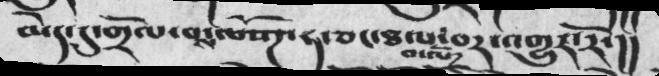མེད་དུ་གྲོལ་བས་ལསོཌ་ཧ་ཅང་ཐལ་བ་ལོ་བར་འགྱུར་རོ་།།
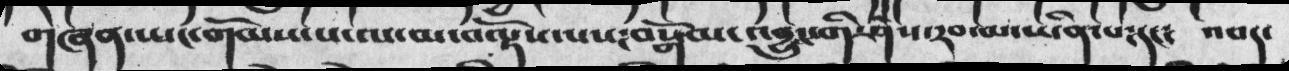གཞན་ཡང་གོམས་པ་ལ་མ་བལྟོས་པས༴བསྒོམ་འབྱུང་གི་ཤེས་རབ་མ་ཡིན་པ༴དང༴ འབད་
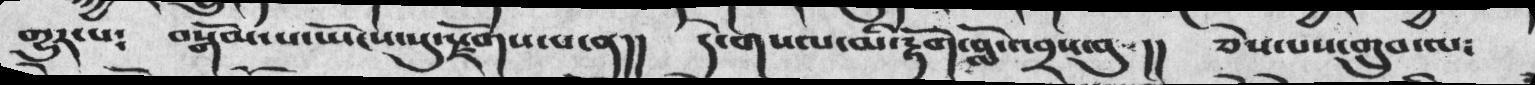གྱུར་པ༴  བསྒོམ་པ་ཡོངས་སུ་སྫོགས་པ་ན།།  དེ་གསལ་མི་རྟོག་བློ་འབྲས་བུ །།  ཅེས་པས་གྲུབ་ལ༴
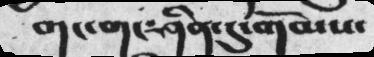གང་གང་ཤིན་དུ་གོམས་
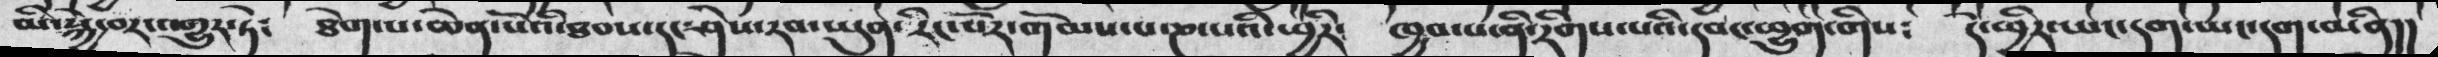མི་སྐྱེ་བར་འགྱུར་ཏེ༴  ཐེག་པ་ཆེན་པོའི་ཐབས་དང་ཤེས་རབ་ཡུན་རིང་པོར་གོམས་པ་ཎ་པའི་ཕྱིར་  ཁྱབ་པ་ནི་རིགས་པའི་དབང་ཕྱུག་གིས༴  དེ་ཕྱིར་ཡང་དག་ཡང་དག་མིན།།
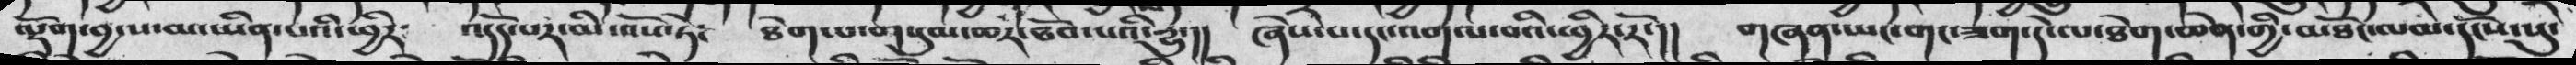ལྡོག་བྱ་པ་མ་ཡིན་པའི་ཕྱིར་  འདོད་པར་མི་འོས་ཏེ༴  ཐེག་པ་གསུམ་ཆར་ཐོབ་པའི་རྱུ་།།  ཞེས་པ་དང་འགལ་བའི་ཕྱིར་རོ་།།  གཞན་ཡང་གང་ཟག་དེ་ལ་ཐེག་ཆེན་གྱི་མཐོང་ལམ་དངོས་སུ་
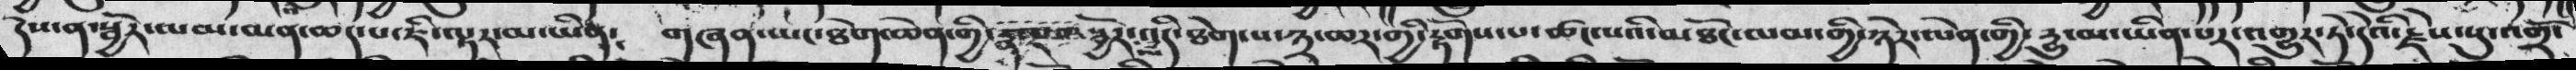དེས་ན་སྦྱོར་ལམ་མན་ཆད་པ་ཇི་ལྟར་མ་ཡིན༴  གཞན་ཡང་ཐེག་ཆེན་གྱི་རྣལ་སྦྱོར་འདི་ཐེག་པ་༣་ཆར་གྱི་རྟོགས་པ་ཚང་ལའི་མཐོང་ལམ་གྱི་ཉེར་ལེན་གྱི་རྒྱུ་མ་ཡིན་པར་འགྱུར་ཏེ་དེའི་རྗེས་སུ་འགྲོ་
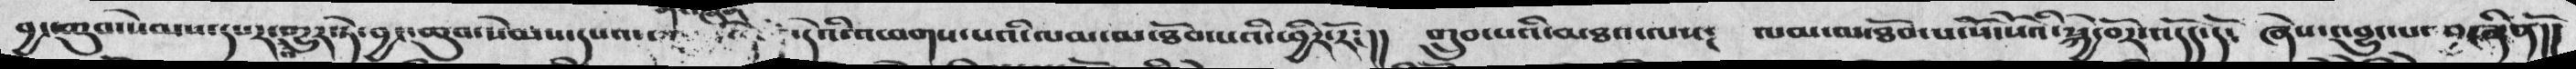བྱང་ཆུབ་སེམས་དཔར་འགྱུར་ཏེ་བྱང་ཆུམ་སེམས་དཔའ་    དེའི་འཕགས་པའི་ལམ་མ་ཐོབ་པའི་ཕྱིར་རོ༴།།  གྲུབ་པའི་མཐལ་ལས༴   ལམ་མ་ཐོབ་པ་སོ་སོའི་སྐྱེ་བོ་འདོད་ནོ
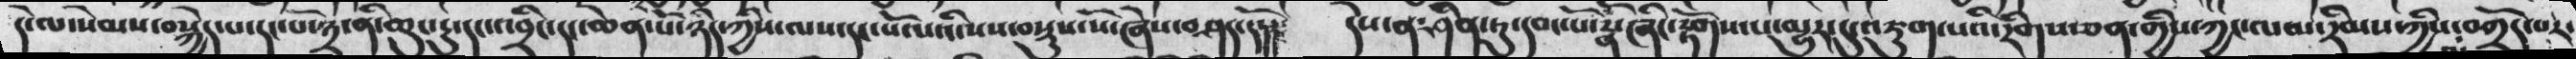དེ་ལ་སེམས་བསྐྱེད་པ་དང་པོ་༣་ནི་ཆུང་རུ་དང་འབྲིང་དང་ཆེན་པོ་ཉིད་ཀྱིས་ལས་དང་པོ་པའོ་སས་བསྡུས་སོ་ཞེས་བཤད་དོ།།  དེས་ན་ཤིན་ཏུ་དབང་པོ་རྣོ་ཞིང་རྟོགས་པ་མྱུར་དུ་འཇུག་པའི་རིགས་ཅན་གྱིས་ཀྱང་ལམ་རིམས་ཀྱིས་བགྲོད་པར་
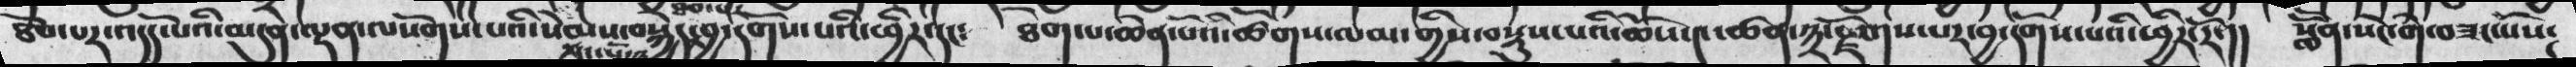ཐོབ་པར་འདོད་པའ་མདུན་ལྡན་ལསོགས་པའི་སེམས་བསྐྱེད་བྱ་དགོས་པའི་ཕྱིར་དང༴   ཐེག་པ་ཆེན་པོའི་ཚོགས་ལམ་གྱིས་བསྡུས་པའི་ཆོས་༤་ཚན་༣་རྫོགས་པར་བྱ་དགོས་པའི་ཕྱིར་རོ་།།   སློོན་སེང་གེ་བཟང་པོས༴
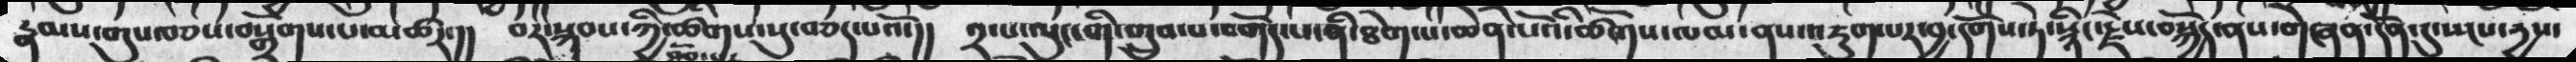རྣམས་གུས་བཅས་བསྒྲོགས་པ་མཚར་།།  བར་སྐབས་ཀྱི་ཚིགས་སུ་བཅད་པའོ་།།  ༢་པ་ལུང་གི་གྲུབ་བགོད་པ་ནི་ཐེག་པ་ཆེན་པོའོ་ཚོགས་ལམ་ནས་འཇུག་པར་བྱ་དགོས་ཏེ་སྙིང་རྗེས་བསྐྱོད་ནས་གཞན་དོན་དུ་སངས་དྱས་
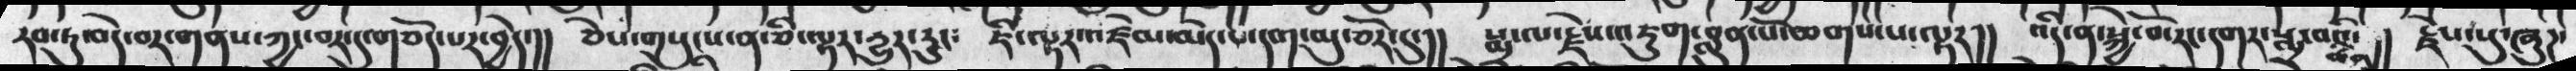རབ་ཏུ་བདེ་བར་གནས་ཀྱང་བར་དུ་གཅོད་པར་བྱེད་།།  ཅེས་གསུངས་ན་ཅི་ལྟར་དྱུར་རུང༴   ཇི་ལྟར་འཛེམ་མེད་པ་དག་མུ་ཅོར་དུ་།།   སྨྲ་ལ་རྗེས་འཇུག་བླུན་པོ་ཆགས་པ་ལྟར།།   འདི་ན་སྐྱེ་བོ་རང་དགར་སྨྲ་བའི་ཚིག།།  རྗེས་སུ་ཞུཌ་
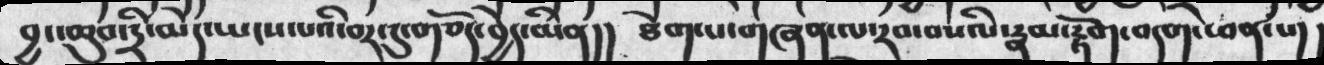བྱང་ཆུབ་དྲི་མེད་སྤངས་པའི་བར་དུ་གཅོད་བྱེད་མིན།། ཐེག་པ་གཞན་ལ་རབ་བསིལ་རྣམ་རྟོག་བདག་ཕན་པ། །
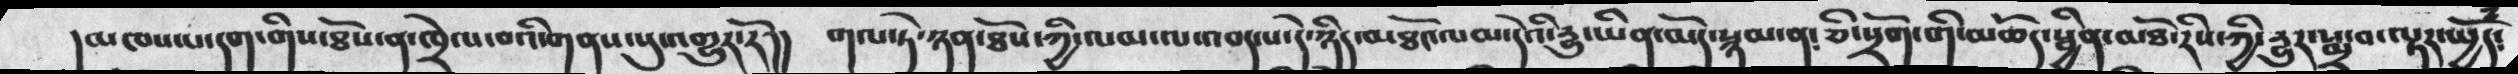།མཁས་པ་དག་གིས་ཐོས་ན་ཁྲེལ་བའི་གནས་སུ་འགྱུར་རོ།།  གལ་ཏེ་ཉན་ཐོས་ཀྱི་ལམ་ལ་འབད་པ་དེ་ཉིད་མཐོང་ལམ་དེའི་རྱུ་ཡིན་མོད་སྙམ་ན་ཅི་སྲོག་གི་མཆོད་སྦྱིན་མཐོ་རིས་ཀྱི་རྱུར་སྨྲ་བ་ལྟར་སྤྱོད༴
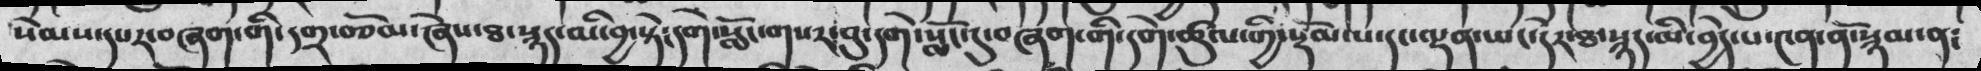སེམས་དཔར་བཞག་གི་དགྲ་བཅོམ་ཞེས་ཐ་སྙད་མི་བྱ་སྟེ༴དགེ་སློང་གསར་བུ་དགེ་སློང་དུ་བཞག་གི་དགེ་ཚུལ་གྱི་སྡོམ་པ་དང་ལྡན་ཡང་དེར་ཐ་སྙད་མི་བྱེད་པ་༤ན་ནོ་སྙམ་ན༴
